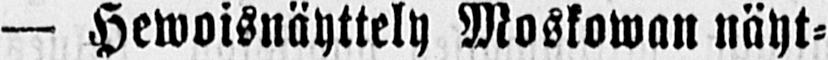— Hewoisnäyttely Moskowan näyt-
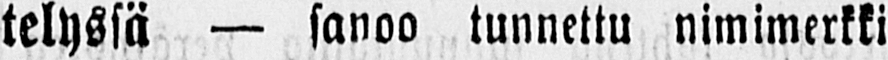telyssä — sanoo tunnettu nimimerkki
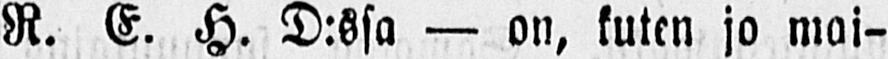R. E. H. D:ssa — on, kuten jo mai-
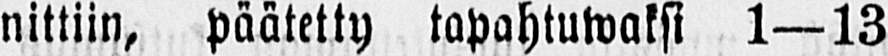nittiin, päätetty tapahtuwaksi 1—13
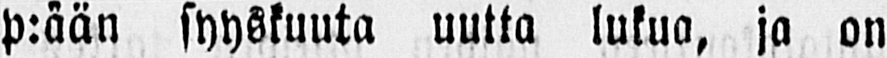p:ään syyskuuta uutta lukua, ja on
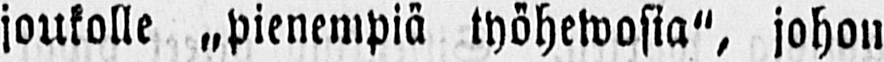joukolle ˶pienempiä työhewosia", johon
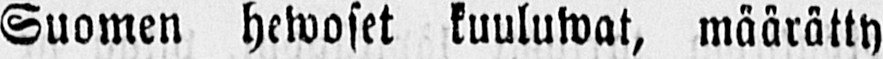Suomen hewoset kuuluwat, määrätty
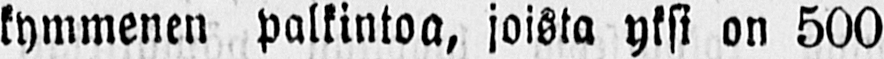kymmenen palkintoa, joista yksi on 500
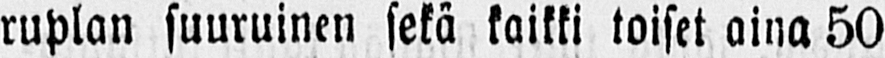ruplan suuruinen sekä kaikki toiset aina 50
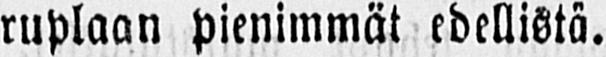ruplaan pienimmät edellistä.
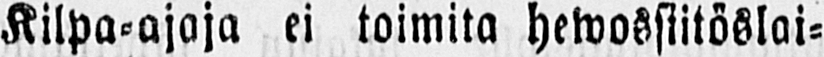Kilpa-ajaja ei toimita hewossiitöslai-
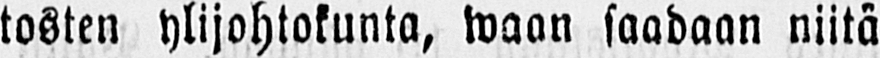tosten ylijohtokunta, waan saadaan niitä
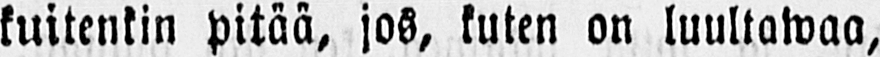kuitenkin pitää, jos, kuten on luultawaa,
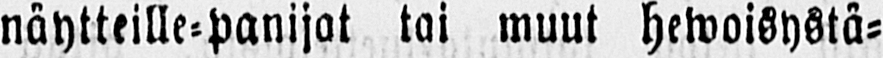näytteille-panijat tai muut hewoisystä-
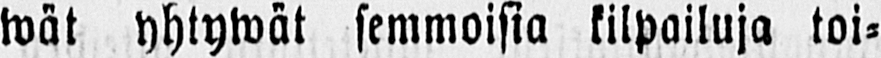wät yhtywät semmoisia kilpailuja toi-
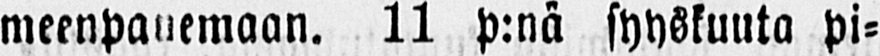meenpanemaan. 11 p:nä syyskuuta pi-
